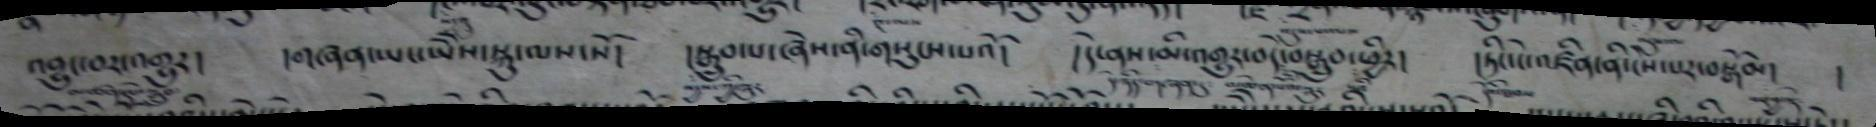འབྱུང་བར་འགྱུར།   །གཞན་ཡང་ཡེེས་སྐུ་ལས་སོ།    །སྒྲུབ་པ་ཞེས་ནི་གསུངས་པའོ།  །དེ་ནས་མི་འགྱུར་བདེ་བསྒྲུབ་ཕྱིར།  །ཏིང་ངེ་འཛིན་ནི་ངེས་པར་བསྒོམ།   །
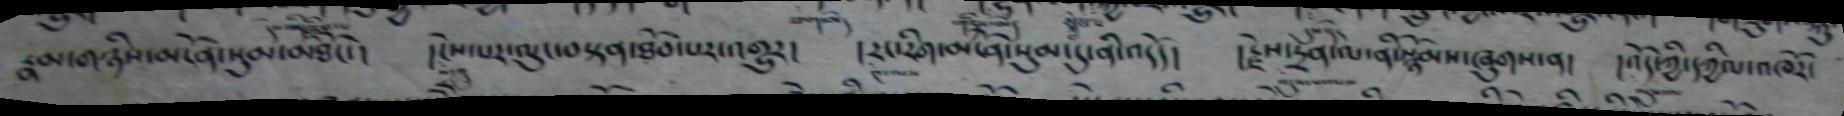རྣམ་གཉིས་མངོན་སུམ་མཐོང་།  །ངེས་པར་ལུང་བསྟན་ཐོབ་པར་འགྱུར།  །རང་རིག་མངོན་སུམ་དུ་ནི་འདོད།   །རྗེས་དྲན་ལ་ནི་སྙོམས་ཞུགས་ན།   །འོད་ཀྱི་དཀྱིལ་འཁོར་
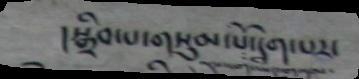།སྒྲིབ་པ་གསུམ་པོ་དག་པར་
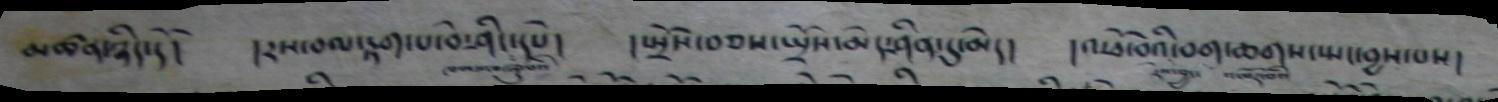མཚན་ཉིད་དོ།    །རས་བལ་རྟག་པ་བེ་ཤིང་དཔེ།   །སྤྲོས་བཅས་སྤྲོས་མེད་ཤིན་དུ་མེད།   །འཕོ་བའི་བག་ཆགས་སྤང་བྱས་པས།
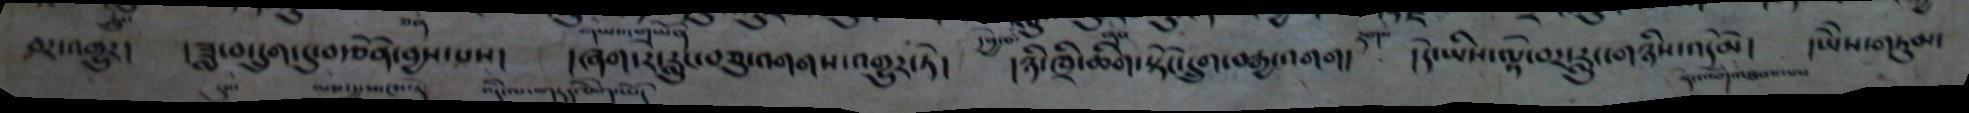བར་འགྱུར།   །ཟླ་བ་དྲུག་དུ་བརྩོན་བྱས།  །ཞག་རང་རླུང་བཅུ་འགགས་འགྱུར་ཏེ།   །ཉི་ཁྲི་ཆིག་སྟོང་དྲུག་བརྒྱ་འགག།   །དེ་ཡིས་ལྟ་བར་རླུང་གཉིས་འདོམ།  །ཡེེས་གཏུམ་
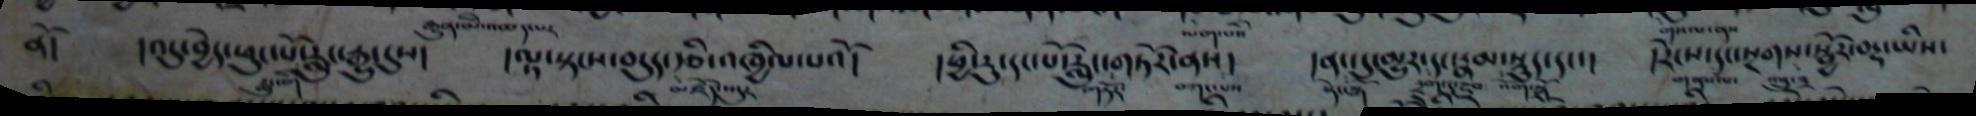ནོ།   །འདུ་བྱེད་ཕུང་པོ་རླུང་རྒྱུ་དུས།    །ལྟ་སྟངས་བདུད་རྩི་འཁྱིལ་པའོ།   །ཕྱི་རུ་དང་པོ་རླུང་གཏོར་ནས།   །ནང་དུ་མྱུར་དང་སྣམ་སྡུད་དང་།   །རེངས་དང་སྔགས་སྦྱོར་བརྡ་ཡིས་
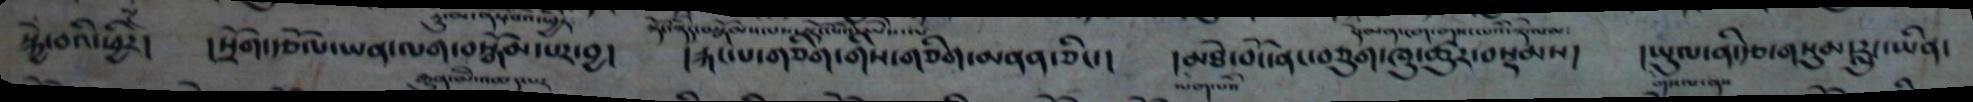སྐྱེ་བའི་ཕྱིར།  །སྲོག་རྩོལ་ཡན་ལག་བསྒོམ་པར་བྱ།    །རྐང་པ་གཅིག་གིས་གཅིག་མནན་ཅིང་།  །མཐེ་བོང་ནང་བཅུ་ཁུ་ཚུར་བསྟམས།  །ཡུལ་ནི་རྩ་གསུམ་རླུང་ཡིན་
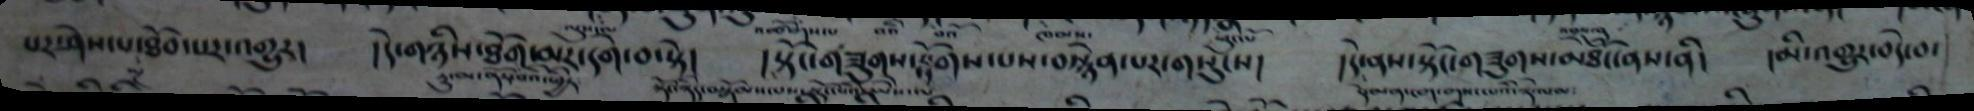པར་ཤེས་པ་ཐོབ་པར་འགྱུར།  །དེ་གཉིས་ཐོག་མར་དགེ་བ་སྟེ།  །སྟོང་གཟུགས་རྟོགས་པས་བསྙེན་པར་གསུངས།  །དེ་ནས་སྟོང་གཟུགས་མཐོང་ནས་ནི།  །མི་འགྱུར་བདེ་བ་
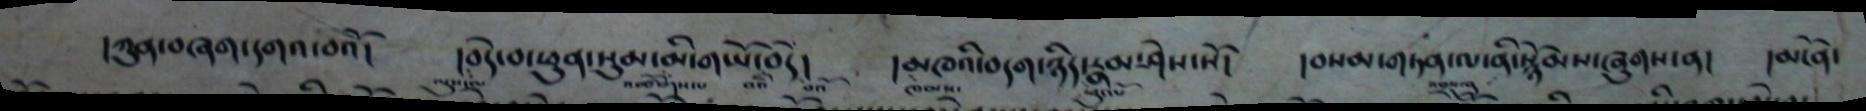།ཀུན་བཞག་དགའ་བའོ།    །བདེ་བ་ཕུན་སུམ་མི་གཡོ་བདེ།   །མཁའི་བདག་ཉིད་རྣམ་ཤེས་སོ།   །བསམ་གཏན་ལ་ནི་སྙོམས་ཞུགས་ན།  །མངོན་
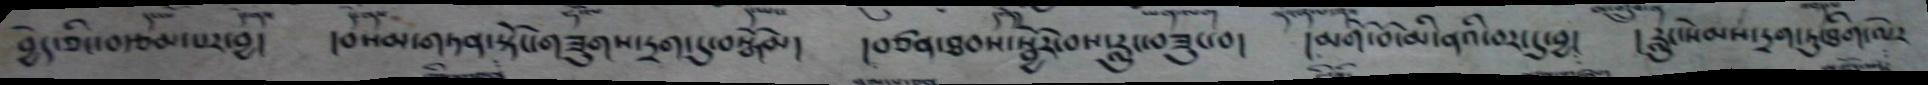བྱེད་ཅིང་བརྩམ་པར་བྱ།  །བསམ་གཏན་སྟོང་གཟུགས་དྲག་དུ་བསྒོམ།   །བཙན་ཐབས་སྦྱོར་བས་རླུང་བཟུང་བ།   །མགོ་བོ་མི་ནའི་བར་དུ་བྱ།  །རླུང་སེམས་དྲག་ཏུ་ཐིག་ལེར
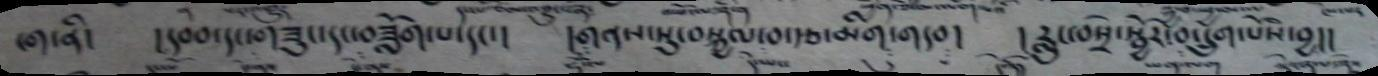ངག་ནི།  །དབབ་དང་གཟུང་དང་བཟློག་པ་དང་།   །གནས་སུ་བསྐྱལ་བ་རྩ་མིག་གདབ།   །རླུང་བསྲེ་སྦྱོར་བ་དྲུག་པོས་བྱ།།
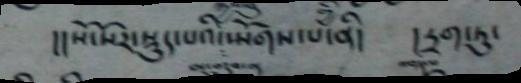།།སོ་སོར་སྡུད་པའི་སྤོགས་པ་ནི།    །དྲག་ཏུ་
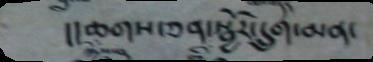།།ཆགས་ཅན་སྦོར་དྲུག་མན་
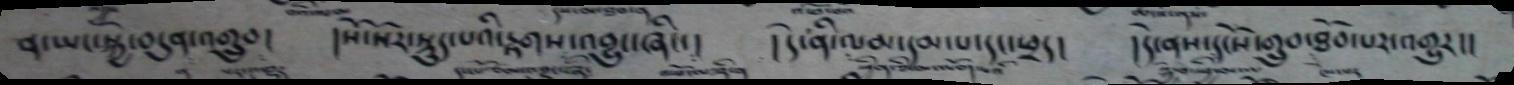ན་ཡང་སྐྱེ་བདུན་འགྲུབ།   །སོ་སོར་སྡུད་པའི་རྟགས་འབྱུང་ཞིང་།   །དེ་ནི་ལམ་དམ་པ་དང་ཕྲད།    །དེ་ནས་དངོས་གྲུབ་ཐོབ་པར་འགྱུར།།
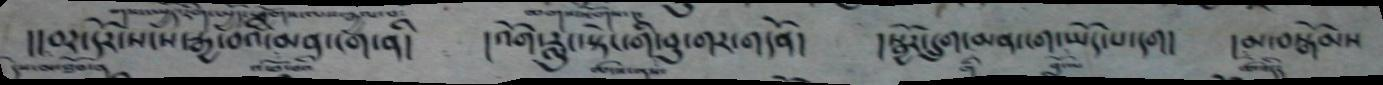།།བར་དོར་སངས་རྒྱ་བའི་མན་ངག་ནི།      །འོག་རླུང་སྟེང་གི་བུ་གར་གདོན།   །སྦྱོར་དྲུག་མན་ངག་ཡོད་པ་དག།    །མ་བསྒོམས
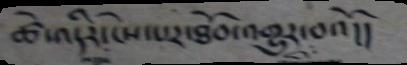ཚེ་འདིར་ངེས་པར་ཐོབ་འགྱུར་བའོ།།
